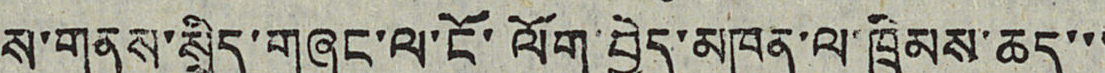ས་གནས་སྲིད་གཞུང་ལ་ངོ་ལོག་བྱེད་མཁན་ལ་ཁྲིམས་ཆད་་་
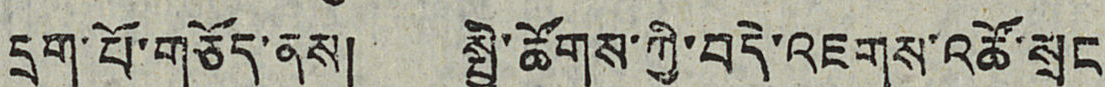དྲག་པོ་གཅོད་ནས། སྤྱི་ཚོགས་ཀྱི་བདེ་འཇགས་འཚོ་སྲུང་
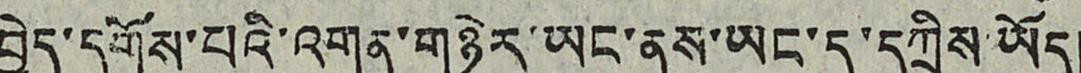བྱེད་དགོས་པའི་འགན་གཉེར་ཡང་ནས་ཡང་དུ་དཀྲིས་ཡོད།
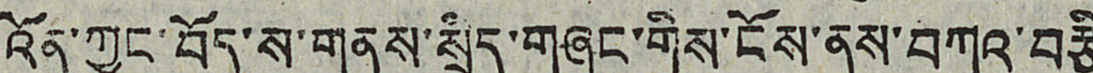འོན་ཀྱང་བོད་ས་གནས་སྲིད་གཞུང་གིས་ངོས་ནས་བཀའ་བརྩི་
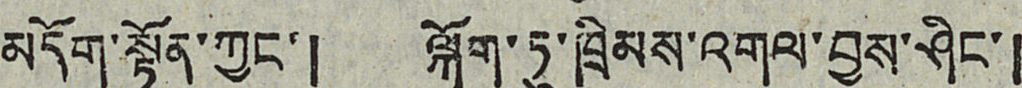མདོག་སྟོན་ཀྱང་། ལྐོག་ཏུ་ཁྲིམས་འགལ་བྱས་ཤིང་།
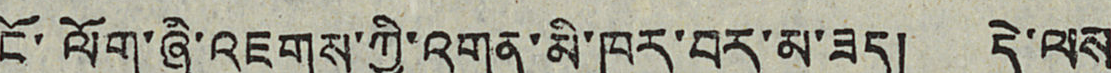ངོ་ལོག་ཞི་འཇགས་ཀྱི་འགན་མི་ཁུར་བར་མ་ཟད། དེ་ལས
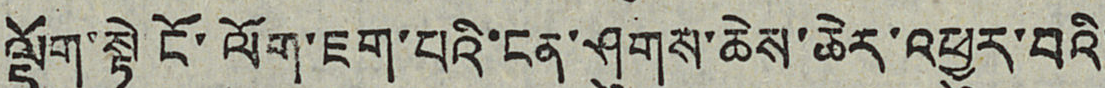ལྡོག་སྟེ ངོ་ལོག་ཇག་པའི་ངན་ཤུགས་ཆེས་ཆེར་འཕྱུར་བའི་
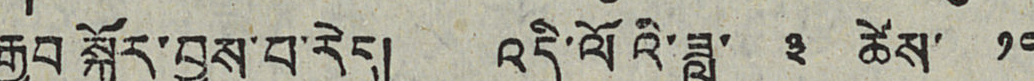རྒྱབ སྐྱོར་བྱས་བ་རེད། འདི་ལོའི་ཟླ་ ༣ ཚེས་ ༡༠
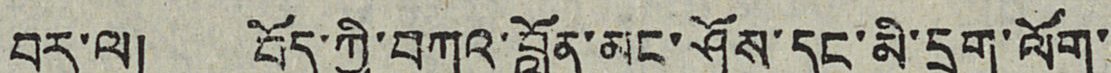བར་ལ། བོད་ཀྱི་བཀའ་བློན་མང་ཤོས་དང་མི་དྲག་ལོག་་
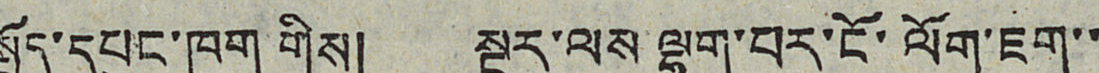སྤྱོད་དཔུང་ཁག གིས། སྔར་ལས ལྷག་པར་ངོ་ལོག་ཇག་་
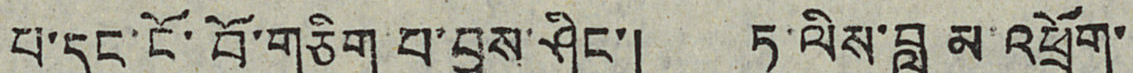པ་དང་ངོ་བོ་གཅིག་པ་བྱས་ཤིང་། ཏཱ་ལིས་བླ མ འཕྲོག་
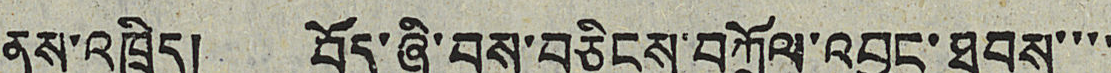ནས་འཁྲིད། བོད་ཞི་བས་བཅིངས་བཀྲོལ་འབྱུང་ཐབས་་་་
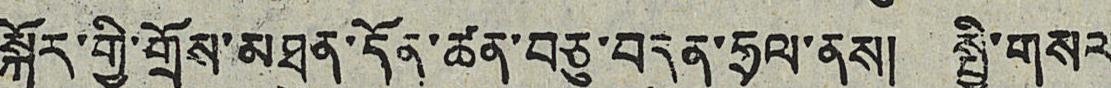སྐོར་གྱི་གྲོས་མཐུན་དོན་ཚན་བཅུ་བདུན་ཧྲལ་ནས། སྤྱི་གསལ
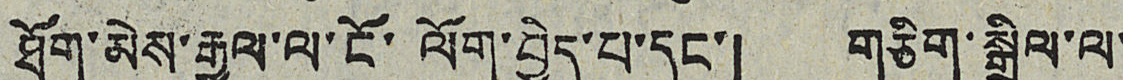ཐོག་མེས་རྒྱལ་ལ་ངོ་ལོག་བྱེད་པ་དང་། གཅིག་སྒྲིལ་ལ་
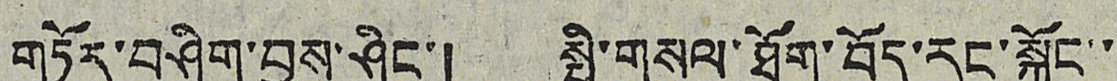གཏོར་བཤིག་བྱས་ཤིང་། སྤྱི་གསལ་ཐོག་བོད་རང་སྐྱོང་་་
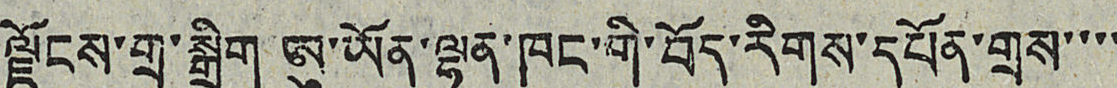ལྗོངས་གྲ་སྒྲིག ཨུ་ཡོན་ལྷན་ཁང་གི་བོད་རིགས་དཔོན་གྲས་་་་
